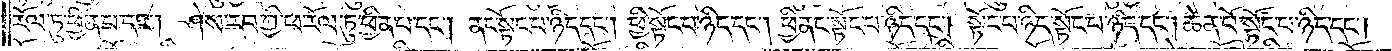རོལ་ཏུ་ཕྱིན་པ་དང༌། ཤེས་རབ་ཀྱི་ཕ་རོལ་ཏུ་ཕྱིན་པ་དང༌། ནང་སྟོང་པ་ཉིད་དང༌། ཕྱི་སྟོང་པ་ཉིད་དང༌། ཕྱི་ནང་སྟོང་པ་ཉིད་དང༌། སྟོང་པ་ཉིད་སྟོང་པ་ཉིད་དང༌། ཆེན་པོ་སྟོང་པ་ཉིད་དང༌།
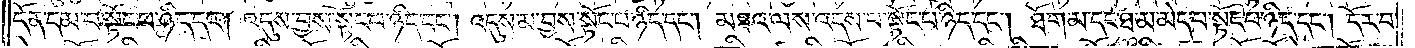དོན་དམ་པ་སྟོང་པ་ཉིད་དང༌། འདུས་བྱས་སྟོང་པ་ཉིད་དང༌། འདུས་མ་བྱས་སྟོང་པ་ཉིད་དང༌། མཐའ་ལས་འདས་པ་སྟོང་པ་ཉིད་དང༌། ཐོག་མ་དང་ཐ་མ་མེད་པ་སྟོང་པ་ཉིད་དང༌། དོར་བ་
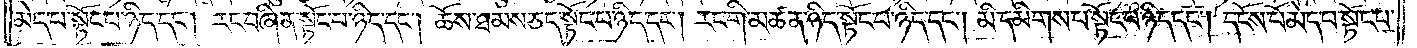མེད་པ་སྟོང་པ་ཉིད་དང༌། རང་བཞིན་སྟོང་པ་ཉིད་དང༌། ཆོས་ཐམས་ཅད་སྟོང་པ་ཉིད་དང༌། རང་གི་མཚན་ཉིད་སྟོང་པ་ཉིད་དང༌། མི་དམིགས་པ་སྟོང་པ་ཉིད་དང༌། དངོས་པོ་མེད་པ་སྟོང་པ་
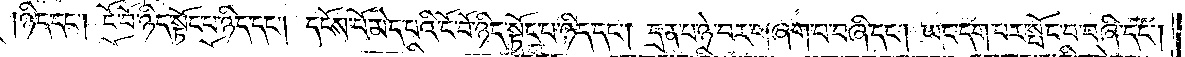ཉིད་དང༌། ངོ་བོ་ཉིད་སྟོང་པ་ཉིད་དང༌། དངོས་པོ་མེད་པའི་ངོ་བོ་ཉིད་སྟོང་པ་ཉིད་དང༌། དྲན་པ་ཉེ་བར་གཞག་པ་བཞི་དང༌། ཡང་དག་པར་སྤོང་བ་བཞི་དང༌།
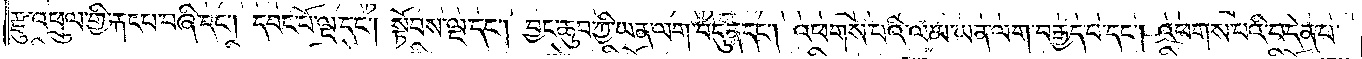རྫུ་འཕྲུལ་གྱི་རྐང་པ་བཞི་དང༌། དབང་པོ་ལྔ་དང༌། སྟོབས་ལྔ་དང༌། བྱང་ཆུབ་ཀྱི་ཡན་ལག་བདུན་དང༌། འཕགས་པའི་ལམ་ཡན་ལག་བརྒྱད་པ་དང༌། འཕགས་པའི་བདེན་པ་
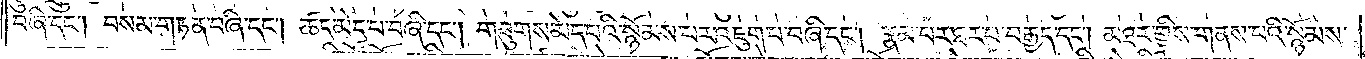བཞི་དང༌། བསམ་གཏན་བཞི་དང༌། ཚད་མེད་པ་བཞི་དང༌། གཟུགས་མེད་པའི་སྙོམས་པར་འཇུག་པ་བཞི་དང༌། རྣམ་པར་ཐར་པ་བརྒྱད་དང༌། མཐར་གྱིས་གནས་པའི་སྙོམས་
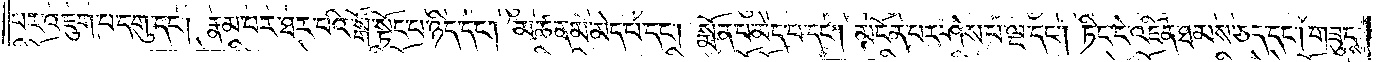པར་འཇུག་པ་དགུ་དང༌། རྣམ་པར་ཐར་པའི་སྒོ་སྟོང་པ་ཉིད་དང༌། མཚན་མ་མེད་པ་དང༌། སྨོན་པ་མེད་པ་དང༌། མངོན་པར་ཤེས་པ་ལྔ་དང༌། ཏིང་ངེ་འཛིན་ཐམས་ཅད་དང༌། གཟུངས་
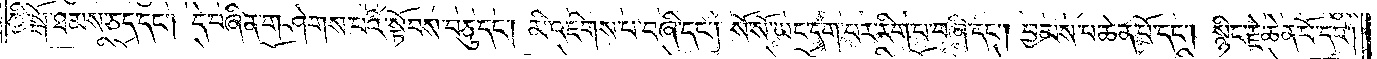ཀྱི་སྒོ་ཐམས་ཅད་དང༌། དེ་བཞིན་གཤེགས་པའི་སྟོབས་བཅུ་དང༌། མི་འཇིགས་པ་བཞི་དང༌། སོ་སོ་ཡང་དག་པར་རིག་པ་བཞི་དང༌། བྱམས་པ་ཆེན་པོ་དང༌། སྙིང་རྗེ་ཆེན་པོ་དང༌།
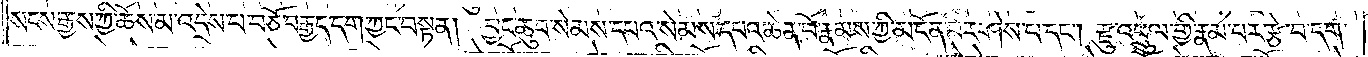སངས་རྒྱས་ཀྱི་ཆོས་མ་འདྲིས་པ་བཅོ་བརྒྱད་དག་ཀྱང་བསྟན། བྱང་ཆུབ་སེམས་དཔའ་སེམས་དཔའ་ཆེན་པོ་རྣམས་ཀྱི་མངོན་པར་ཤེས་པ་དང༌། རྫུ་འཕྲུལ་གྱིས་རྣམ་པར་རྩེ་བ་དག་
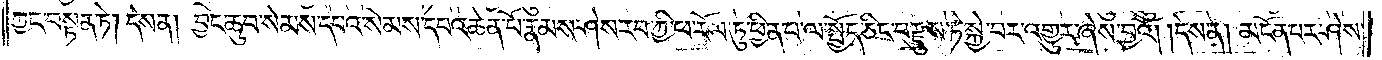ཀྱང་བསྟན་ཏེ། དེས་ན། བྱང་ཆུབ་སེམས་དཔའ་སེམས་དཔའ་ཆེན་པོ་རྣམས་ཤེས་རབ་ཀྱི་ཕ་རོལ་ཏུ་ཕྱིན་པ་ལ་སྤྱོད་ཅིང་བརྫུས་ཏེ་སྐྱེ་བར་འགྱུར་ཞེས་བྱའོ། །དེས་ན། མངོན་པར་ཤེས་
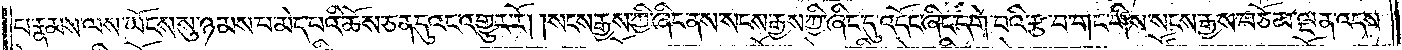པ་རྣམས་ལས་ཡོངས་སུ་ཉམས་པ་མེད་པའི་ཆོས་ཅན་དུའང་འགྱུར་རོ། །སངས་རྒྱས་ཀྱི་ཞིང་ནས་སངས་རྒྱས་ཀྱི་ཞིང་དུ་འདོང་ཞིང་དགེ་བའི་རྩ་བ་གང་གིས་སངས་རྒྱས་བཅོམ་ལྡན་འདས་
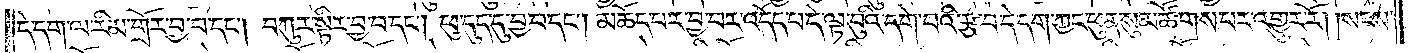དེ་དག་ལ་རིམ་གྲོར་བྱ་བ་དང༌། བཀུར་སྟིར་བྱ་བ་དང༌། ཕུ་དུད་དུ་བྱ་བ་དང༌། མཆོད་པར་བྱ་བར་འདོད་པ་དེ་ལྟ་བུའི་དགེ་བའི་རྩ་བ་དེ་དག་ཀྱང་ཕུན་སུམ་ཚོགས་པར་འགྱུར་རོ། །སངས་
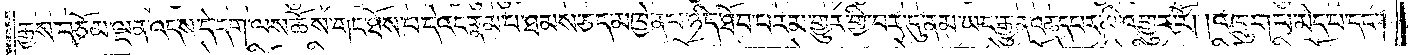རྒྱས་བཅོམ་ལྡན་འདས་དེ་དག་ལས་ཆོས་གང་ཐོས་པ་དེའང་རྣམ་པ་ཐམས་ཅད་མཁྱེན་པ་ཉིད་ཐོབ་པར་མ་གྱུར་གྱི་བར་དུ་ནམ་ཡང་རྒྱུན་ཆད་པར་མི་འགྱུར་རོ། །འཁྲུག་པ་མེད་པ་དང༌།
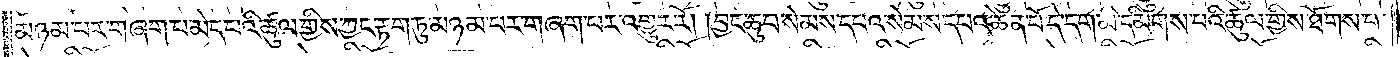མཉམ་པར་གཞག་པ་མེད་པའི་ཚུལ་གྱིས་ཀྱང་རྟག་ཏུ་མཉམ་པར་བཞག་པར་འགྱུར་རོ། །བྱང་ཆུབ་སེམས་དཔའ་སེམས་དཔའ་ཆེན་པོ་དེ་དག་མི་དམིགས་པའི་ཚུལ་གྱིས་ཐོགས་པ་
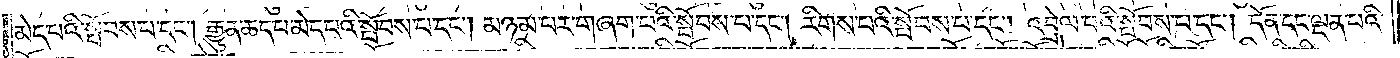མེད་པའི་སྟོབས་པ་དང༌། རྒྱུན་ཆད་པ་མེད་པའི་སྤོབས་པ་དང༌། མཉམ་པར་གཞག་པའི་སྤོབས་པ་དང༌། རིགས་པའི་སྤོབས་པ་དང༌། འབྲེལ་པའི་སྤོབས་པ་དང༌། དོན་དང་ལྡན་པའི་
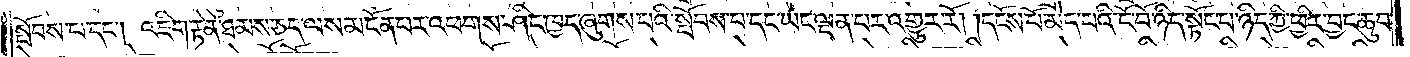སྤོབས་པ་དང༌། འཇིག་རྟེན་ཐམས་ཅད་ལས་མངོན་པར་འཕགས་ཤིང་ཁྱད་ཞུགས་པའི་སྤོབས་པ་དང་ཡང་ལྡན་པར་འགྱུར་རོ། །དངོས་པོ་མེད་པའི་ངོ་བོ་ཉིད་སྟོང་པ་ཉིད་ཀྱི་ཕྱིར་བྱང་ཆུབ་
